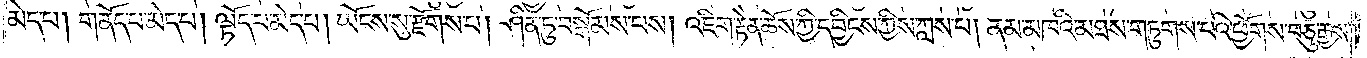མེད་པ། གནོད་པ་མེད་པ། ལྟོད་པ་མེད་པ། ཡོངས་སུ་རྫོགས་པ། ཤིན་ཏུ་བསྒོམས་པས། འཇིག་རྟེན་ཆོས་ཀྱི་དབྱིངས་ཀྱིས་ཀླས་པ། ནམ་མཁའི་མཐས་གཏུགས་པའི་ཕྱོགས་བཅུ་རྒྱས་
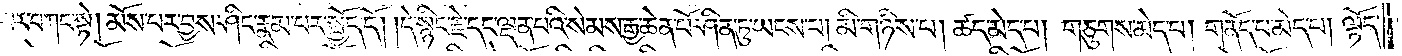པར་བཀང་སྟེ། མོས་པར་བྱས་ཤིང་རྣམ་པར་སྤྱོད་དོ། །དེ་སྙིང་རྗེ་དང་ལྡན་པའི་སེམས་རྒྱ་ཆེན་པོ་ཤིན་ཏུ་ཡངས་པ་མི་གཉིས་པ། ཚད་མེད་པ། གཅུགས་མེད་པ། གནོད་པ་མེད་པ། ལྟོད་
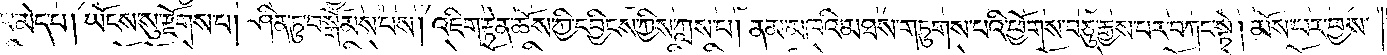པ་མེད་པ། ཡོངས་སུ་རྫོགས་པ། ཤིན་ཏུ་བསྒོམས་པས། འཇིག་རྟེན་ཆོས་ཀྱི་དབྱིངས་ཀྱིས་ཀླས་པ། ནམ་མཁའི་མཐས་གཏུགས་པའི་ཕྱོགས་བཅུ་རྒྱས་པར་བཀང་སྟེ། མོས་པར་བྱས་
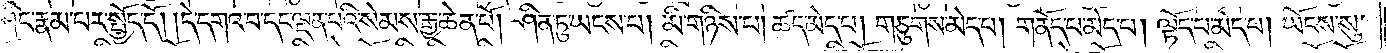ཤིང་རྣམ་པར་སྤྱོད་དོ། །དེ་དགའ་བ་དང་ལྡན་པའི་སེམས་རྒྱ་ཆེན་པོ། ཤིན་ཏུ་ཡངས་པ། མི་གཉིས་པ། ཚད་མེད་པ། གཅུགས་མེད་པ། གནོད་པ་མེད་པ། ལྟོད་པ་མེད་པ། ཡོངས་སུ་
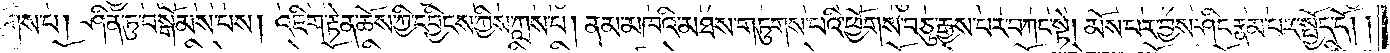རྫོགས་པ། ཤིན་ཏུ་བསྒོམས་པས། འཇིག་རྟེན་ཆོས་ཀྱི་དབྱིངས་ཀྱིས་ཀླས་པ། ནམ་མཁའི་མཐས་གཏུགས་པའི་ཕྱོགས་བཅུ་རྒྱས་པར་བཀང་སྟེ། མོས་པར་བྱས་ཤིང་རྣམ་པར་སྤྱོད་དོ། །
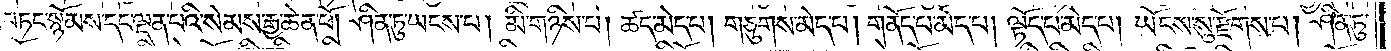བཏང་སྙོམས་དང་ལྡན་པའི་སེམས་རྒྱ་ཆེན་པོ། ཤིན་ཏུ་ཡངས་པ། མི་གཉིས་པ། ཚད་མེད་པ། གཅུགས་མེད་པ། གནོད་པ་མེད་པ། ལྟོད་པ་མེད་པ། ཡོངས་སུ་རྫོགས་པ། ཤིན་ཏུ་
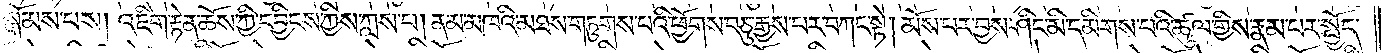སྒོམས་པས། འཇིག་རྟེན་ཆོས་ཀྱི་དབྱིངས་ཀྱིས་ཀླས་པ། ནམ་མཁའི་མཐས་གཏུགས་པའི་ཕྱོགས་བཅུ་རྒྱས་པར་བཀང་སྟེ། མོས་པར་བྱས་ཤིང་མི་དམིགས་པའི་ཚུལ་གྱིས་རྣམ་པར་སྤྱོད་
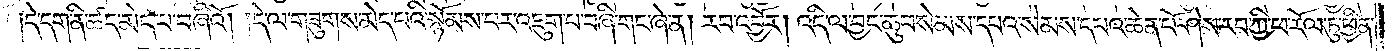།དེ་དག་ནི་ཚད་མེད་པ་བཞིའོ། །དེ་ལ་གཟུགས་མེད་པའི་སྙོམས་པར་འཇུག་པ་བཞི་གང་ཞེ་ན། རབ་འབྱོར། འདི་ལ་བྱང་ཆུབ་སེམས་དཔའ་སེམས་དཔའ་ཆེན་པོ་ཤེས་རབ་ཀྱི་ཕ་རོལ་ཏུ་ཕྱིན་
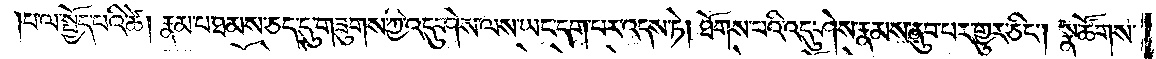།པ་ལ་སྤྱོད་པའི་ཚེ། རྣམ་པ་ཐམས་ཅད་དུ་གཟུགས་ཀྱི་འདུ་ཤེས་ལས་ཡང་དག་པར་འདས་ཏེ། ཐོགས་པའི་འདུ་ཤེས་རྣམས་ནུབ་པར་གྱུར་ཅིང༌། སྣ་ཚོགས་
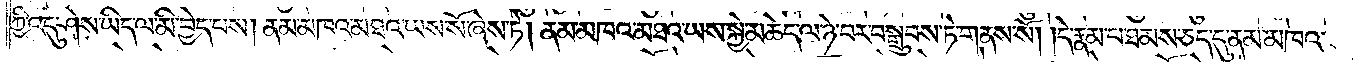ཀྱི་འདུ་ཤེས་ཡིད་ལ་མི་བྱེད་པས། ནམ་མཁའ་མཐའ་ཡས་སོ་ཞེས་ཏེ། ནམ་མཁའ་མཐའ་ཡས་སྐྱེ་མཆེད་ལ་ཉེ་བར་བསྒྲུབས་ཏེ་གནས་སོ། །དེ་རྣམ་པ་ཐམས་ཅད་དུ་ནམ་མཁའ་
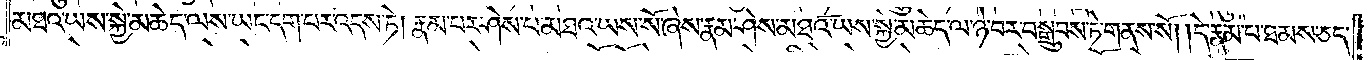མཐའ་ཡས་སྐྱེ་མཆེད་ལས་ཡང་དག་པར་འདས་ཏེ། རྣམ་པར་ཤེས་པ་མཐའ་ཡས་སོ་ཞེས་རྣམ་ཤེས་མཐའ་ཡས་སྐྱེ་མཆེད་ལ་ཉེ་བར་བསྒྲུབས་ཏེ་གནས་སོ། །དེ་རྣམ་པ་ཐམས་ཅད་
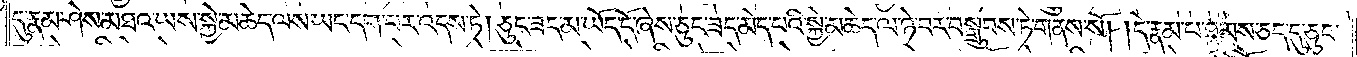དུ་རྣམ་ཤེས་མཐའ་ཡས་སྐྱེ་མཆེད་ལས་ཡང་དག་པར་འདས་ཏེ། ཅུང་ཟད་མ་ཡོད་དོ་ཞེས་ཅུང་ཟད་མེད་པའི་སྐྱེ་མཆེད་ལ་ཉེ་བར་བསྒྲུབས་ཏེ་གནས་སོ། །དེ་རྣམ་པ་ཐམས་ཅད་དུ་ཅུང་
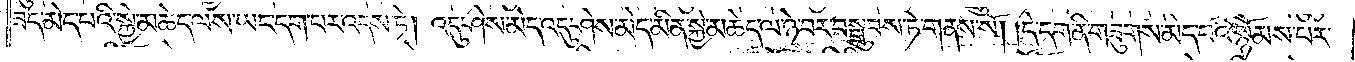ཟད་མེད་པའི་སྐྱེ་མཆེད་ལས་ཡང་དག་པར་འདས་ཏེ། འདུ་ཤེས་མེད་འདུ་ཤེས་མེད་མིན་སྐྱེ་མཆེད་ལ་ཉེ་བར་བསྒྲུབས་ཏེ་གནས་སོ། །དེ་དག་ནི་གཟུགས་མེད་པའི་སྙོམས་པར་
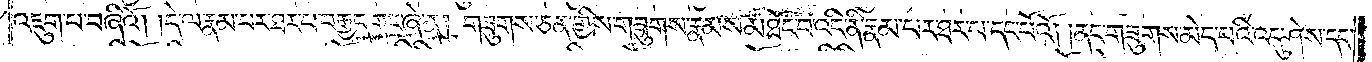འཇུག་པ་བཞིའོ། །དེ་ལ་རྣམ་པར་ཐར་པ་བརྒྱད་གང་ཞེ་ན། གཟུགས་ཅན་གྱིས་གཟུགས་རྣམས་མཐོང་བ་འདི་ནི་རྣམ་པར་ཐར་པ་དང་པོའོ། །ནང་གཟུགས་མེད་པའི་འདུ་ཤེས་དང་
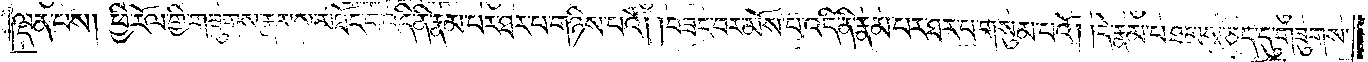ལྡན་པས། ཕྱི་རོལ་གྱི་གཟུགས་རྣམས་མཐོང་བ་འདི་ནི་རྣམ་པར་ཐར་པ་གཉིས་པའོ། །བཟང་བར་མོས་པ་འདི་ནི་རྣམ་པར་ཐར་པ་གསུམ་པའོ། །དེ་རྣམ་པ་ཐམས་ཅད་དུ་གཟུགས་
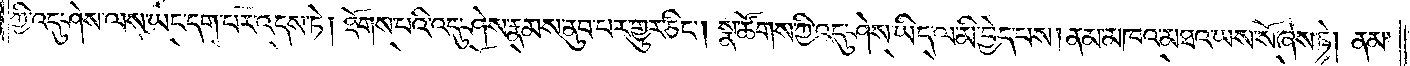ཀྱི་འདུ་ཤེས་ལས་ཡང་དག་པར་འདས་ཏེ། ཐོགས་པའི་འདུ་ཤེས་རྣམས་ནུབ་པར་གྱུར་ཅིང༌། སྣ་ཚོགས་ཀྱི་འདུ་ཤེས་ཡིད་ལ་མི་བྱེད་པས། ནམ་མཁའ་མཐའ་ཡས་སོ་ཞེས་ཏེ། ནམ་
